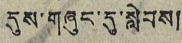དུས་གཞུང་དུ་སླེབས།
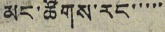མང་ཚོགས་རང་་་་་
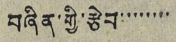བཞིན་གྱི་རྩེབ་་་་་་་་
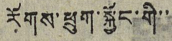རོགས་ཕྲུག་སྐྱོང་གི་་
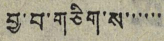བྱ་བ་གཅིག་ས་་་་་
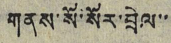གནས་སོ་སོར་བྲེལ་་
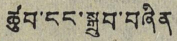ཚུབ་ངང་སྒྲུབ་བཞིན།
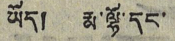ཡོད། རྨ་ལྷོ་དང་་
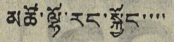མཚོ་ལྷོ་རང་སྐྱོང་་་་
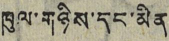ཁུལ་གཉིས་དང་མིན
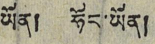ཡོན། ཧོད་ཡོན།
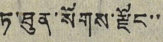ཏུ་ཐུན་སོགས་རྫོང་་
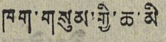ཁག་གསུམ་གྱི་ཆ་མི་
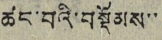ཚང་བའི་བསྡོམས་་
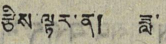རྩིས་ལྟར་ན། ཟླ་
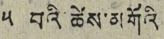༥ བའི་ཚེས་མགོའི
